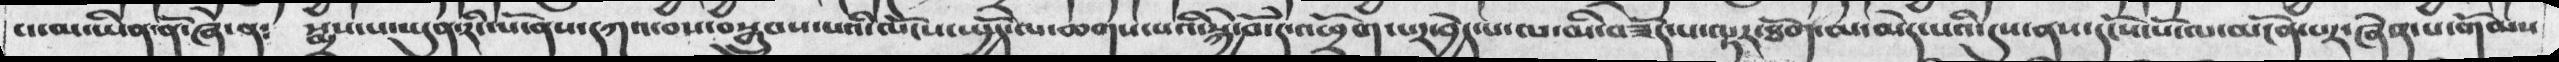བ་མ་ཡིན་ནོ་ཞེ་ན༴ སྨྲས་པ་ཡུན་རིང་པོ་ནས་དཀའ་བས་བསྒྲུབས་པའི་ལོངས་སྤྱོད་ལ་ཆགས་པའི་སྐྱེ་བོ་དེ་འཕྲོག་པར་བྱེད་པ་ལ་མི་བཟོད་པ་ལྟར་ཐོག་མ་མེད་པའི་དུས་ནས་དངོས་པོ་ལ་མངོན་པར་ཞེན་པ་གོམས
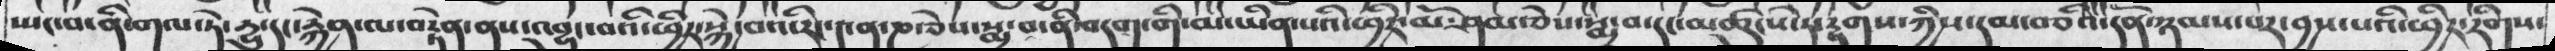སྤང་པ་ནི་གལ་ཏེ་དྱུ་དང་རྐྱེན་ལ་བརྟེན་ནས་འབྱུང་བའི་ཕྱིར་སྐྱེ་བའི་རང་༤ན་ཎ་ཅེས་སྨྲ་བ་ནི་བདག་གི་མ་ཡིན་པའི་ཕྱིར་མོ་ཤམ་ཅེས་སྨྲ་བ་དང་མཚུངས་ཏེ་རྟགས་ཀྱིས་དམ་བཅའི་དོན་ཉམས་པར་བྱས་པའི་ཕྱིར་རིགས་
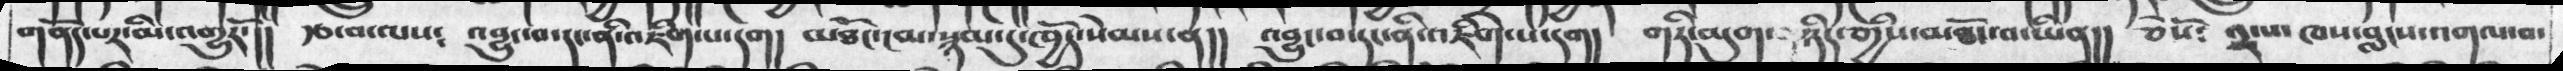གནོད་པར་མི་འགྱུརོ་།།  རྩ་བ་ལས༴   འབྱུང་བ་དང་ནི་འཇིག་པ་དག།  མཐོང་ངམ་སྙམ་དུ་ཁྱོད་སེམས་ན།།  འབྱུང་བ་དང་ནི་འཇིག་པ་དག།  གཏི་མུ་གཉིད་གྱིས་མཐོང་བ་ཡིན།།  ཅེསོ༴  ༢་ལ་ཁས་བླངས་འགལ་བ་
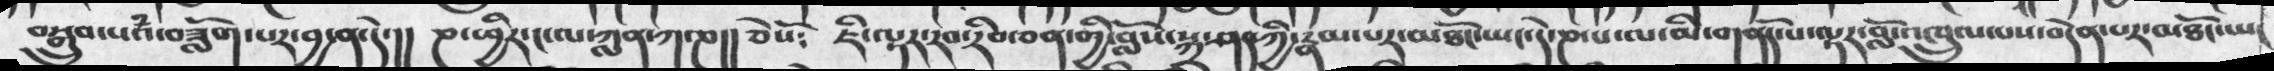བསྒྲུབ་པའཾ་བཟློག་པར་བྱ་ན་དེ་།། ཎ་ཕྱིར་ང་ལ་ཀླན་ཀ་ཎ།། ཅེསོ༴ ཇི་ལྟར་རབ་རིབ་ཅན་གྱི་བློས་སྐྲ་ཤད་ཀྱི་རྣམ་པར་མཐོང་ཡང་དེ་ཎ་པ་ལ་མི་གནོད་པ་ལྟར་བློ་འཁྲུལ་པས་བདེན་པར་མཐོང་ཡང
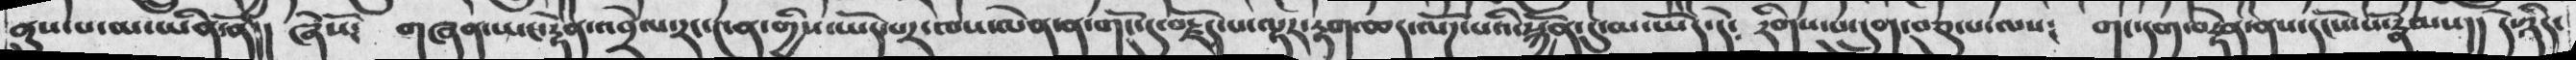ནུས་པ་མ་ཡིན་ནོ།། ཞེསོ༴ གཞན་ཡང་རྟེན་འབྲེལ་རང་༤ན་གྱིས་ཡོད་པར་ཁས་ལེན་ན་གོང་དུ་བརྗོད་པ་ལྟར་རྟག་ཆད་ལོཌ་པའི་སྐྱོན་དུ་མ་ཡོད་དེ༴ རིགས་པ་དྲུག་བཅུ་པ་ལས༴  གང་དག་བརྟེན་ནས་དངོས་པོ་རྣམས།། དེ་ཉིད་
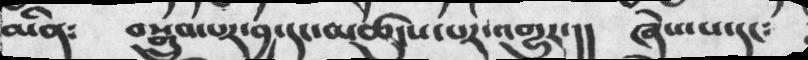མིན༴  བསྒྲུབ་པར་བྱ་དང་མཚུངས་པར་འགྱུར་།།  ཞེས་པ་དང༴
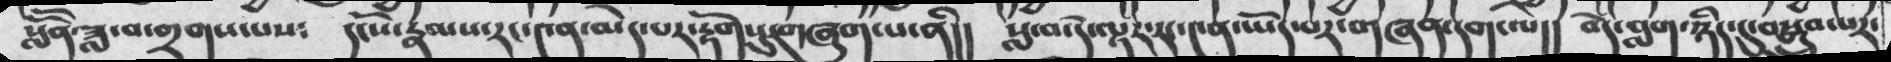སློོན་ཟླ་བ་གྲགས་པས༴ དངོས་རྣམས་རང་༤ན་མེད་པར་རྟོགསུ་གཞུག་པ་ནི།། སླ་བ་དེ་ལྟར་རང་༤ན་ཡོད་པར་གཞན་དག་ལ།། བདེ་བླག་ཉིད་དུ་བསྒྲུབ་པར་
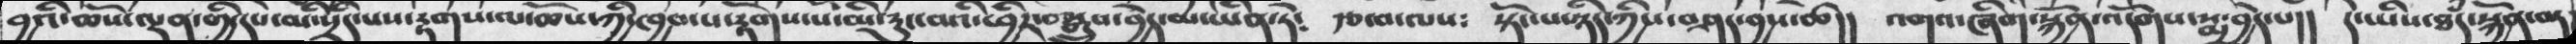བྱའི་ཆོས་ལྡན་གྱི་དཔེ་མི་སྲིད་པས་རྟགས་ལ་ཆོས་ཀྱི་ཁྱབ་པ་རྟོགས་པ་མི་རུང་བའི་ཕྱིར་བསྒྲུབ་བྱེད་མ་ཡིན་ཏེ༴ རྩ་བ་ལས༴ སྟོང་པ་ཉིད་ཀྱིས་བཤད་བྱས་ཚེ།། འགའ་ཞིག་སྐྱོན་འདོགས་སྨ་བྱེད་པ།། དེ་ཡིས་ཐཾད་སྐྱོན་བར
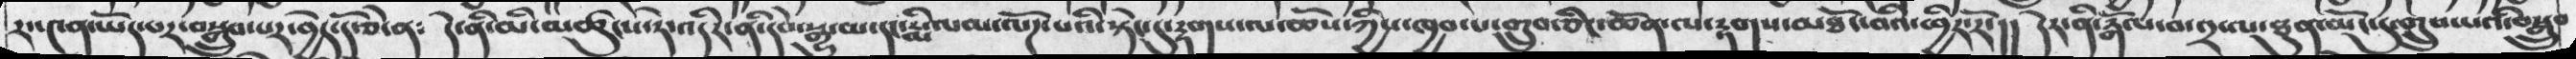རང་༤ན་ཡོད་པར་བསྒྲུབ་པར་བྱེད་དོ་ཅེ་ན༴ དེ་ནི་མི་མཚུངས་ཏེ་འདིར་ནི་དཔེ་སྒྱུ་མ་དང་རྨི་ལམ་ལོཌ་པའི་སྟེང་དུ་རྟགས་ལ་ཆོས་ཀྱིས་ཁྱབ་པ་གྲུབ་ཅིང་ཆོན་ལ་རྟགས་མཐོང་བའི་ཕྱིར་རོ་།། དེར་ནི་རྒོལ་བ་༢་ལ་ཐུན་མོང་དུ་གྲུབ་པའི་བསྒྲུབ
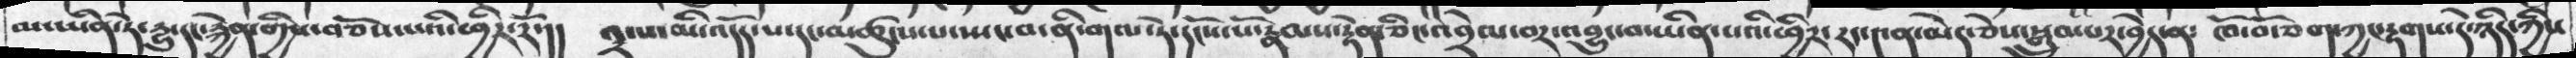མ་ཡིན་ཏེ་དྱུ་དང་རྐྱེན་གྱིས་བཅོས་པའི་ཕྱིར་རོ་།། ༢་པ་མི་འདོད་པ་དང་མཚུངས་པ་སྤང་བ་ནི་གལ་ཏེ་དངོས་པོ་རྣམས་རྟེན་ཅིང་འབྲེལ་བར་འབྱུང་བ་ཡིན་པའི་ཕྱིར་རང་༤ན་མེད་ཅེས་སྒྲུབ་པར་བྱེད་ན༴ ཁོ་བོ་ཅག་ཀྱང་རྟགས་དེ་ཉིད་ཀྱིས
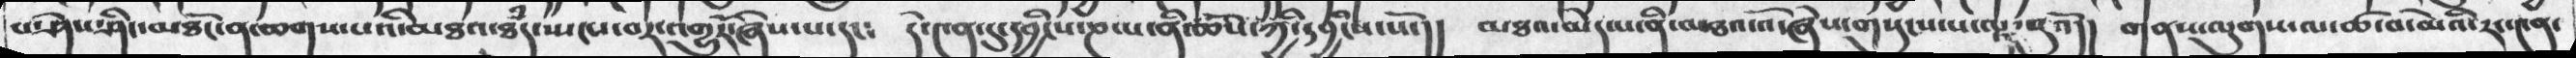པ་ཤེས་ཤིང་མཐོང་ན་ཆགས་པའི་མཐའ་ཐཾད་སྤངས་བར་འགྱུརོ་ཞེས་པ་དང༴   དེ་༤ན་དུ་དབྱིངས་ཎ་པ་ནི་ཆོས་ཀྱི་དབྱིངས་སོ་།།  མཐའ་མེད་པ་ནི་མཐའ་འོ་ཞེས་གསུངས་པ་ལྟ་བུའོ།།  གནས་ལུགས་ལ་ཚ་བ་མེའི་རང་༤ན་
